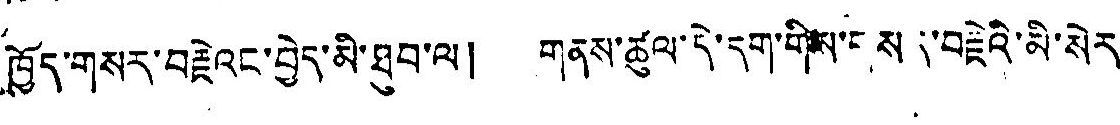ཁྱོད་གསར་བརྗེའང་བྱེད་མི་ཐུབ་ལ། གནས་ཚུལ་དེ་དག་གིས་གསར་བརྗེའི་མི་སེར་
